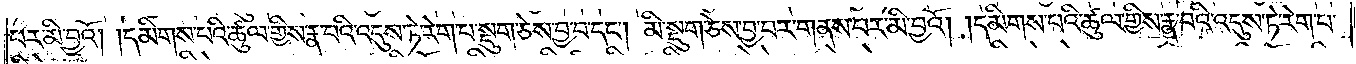པར་མི་བྱའོ། །དམིགས་པའི་ཚུལ་གྱིས་རྣ་བའི་འདུས་ཏེ་རེག་པ་སྡུག་ཅེས་བྱ་བ་དང༌། མི་སྡུག་ཅེས་བྱ་བར་གནས་པར་མི་བྱའོ། །དམིགས་པའི་ཚུལ་གྱིས་རྣ་བའི་འདུས་ཏེ་རེག་པ་
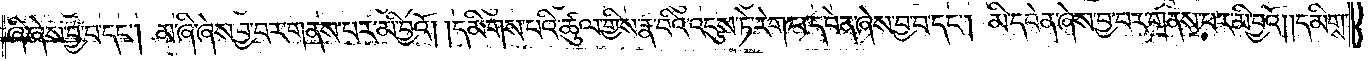ཞི་ཞེས་བྱ་བ་དང༌། མ་ཞི་ཞེས་བྱ་བར་གནས་པར་མི་བྱའོ། །དམིགས་པའི་ཚུལ་གྱིས་རྣ་བའི་འདུས་ཏེ་རེག་པ་དབེན་ཞེས་བྱ་བ་དང༌། མི་དབེན་ཞེས་བྱ་བར་གནས་པར་མི་བྱའོ། །དམིགས་
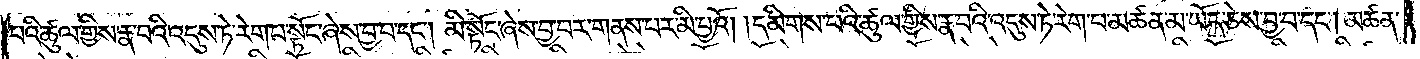པའི་ཚུལ་གྱིས་རྣ་བའི་འདུས་ཏེ་རེག་པ་སྟོང་ཞེས་བྱ་བ་དང༌། མི་སྟོང་ཞེས་བྱ་བར་གནས་པར་མི་བྱའོ། །དམིགས་པའི་ཚུལ་གྱིས་རྣ་བའི་འདུས་ཏེ་རེག་པ་མཚན་མ་ཡོད་ཅེས་བྱ་བ་དང༌། མཚན་
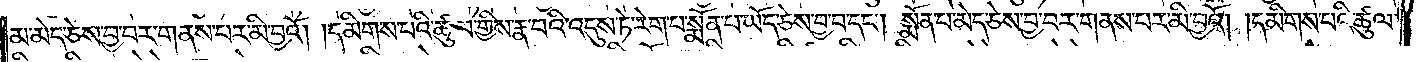མ་མེད་ཅེས་བྱ་བར་གནས་པར་མི་བྱའོ། །དམིགས་པའི་ཚུལ་གྱིས་རྣ་བའི་འདུས་ཏེ་རེག་པ་སྨོན་པ་ཡོད་ཅེས་བྱ་བ་དང༌། སྨོན་པ་མེད་ཅེས་བྱ་བར་གནས་པར་མི་བྱའོ། །དམིགས་པའི་ཚུལ་
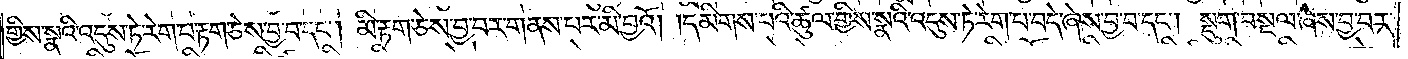གྱིས་སྣའི་འདུས་ཏེ་རེག་པ་རྟག་ཅེས་བྱ་བ་དང༌། མི་རྟག་ཅེས་བྱ་བར་གནས་པར་མི་བྱའོ། །དམིགས་པའི་ཚུལ་གྱིས་སྣའི་འདུས་ཏེ་རེག་པ་བདེ་ཞེས་བྱ་བ་དང༌། སྡུག་བསྔལ་ཞེས་བྱ་བར་
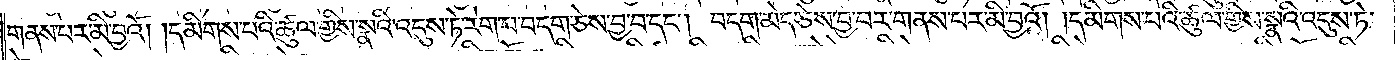གནས་པར་མི་བྱའོ། །དམིགས་པའི་ཚུལ་གྱིས་སྣའི་འདུས་ཏེ་རེག་པ་བདག་ཅེས་བྱ་བ་དང༌། བདག་མེད་ཅེས་བྱ་བར་གནས་པར་མི་བྱའོ། །དམིགས་པའི་ཚུལ་གྱིས་སྣའི་འདུས་ཏེ་
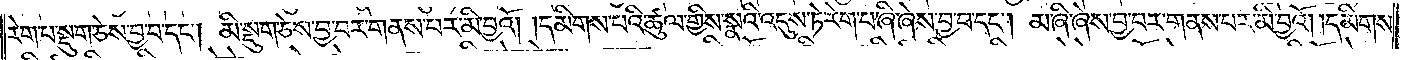རེག་པ་སྡུག་ཅེས་བྱ་བ་དང༌། མི་སྡུག་ཅེས་བྱ་བར་གནས་པར་མི་བྱའོ། །དམིགས་པའི་ཚུལ་གྱིས་སྣའི་འདུས་ཏེ་རེག་པ་ཞི་ཞེས་བྱ་བ་དང༌། མ་ཞི་ཞེས་བྱ་བར་གནས་པར་མི་བྱའོ། །དམིགས་
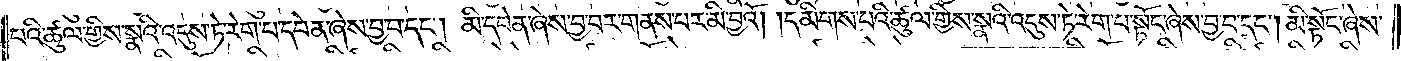པའི་ཚུལ་གྱིས་སྣའི་འདུས་ཏེ་རེག་པ་དབེན་ཞེས་བྱ་བ་དང༌། མི་དབེན་ཞེས་བྱ་བར་གནས་པར་མི་བྱའོ། དམིགས་པའི་ཚུལ་གྱིས་སྣའི་འདུས་ཏེ་རེག་པ་སྟོང་ཞེས་བྱ་བ་དང༌། མི་སྟོང་ཞེས་
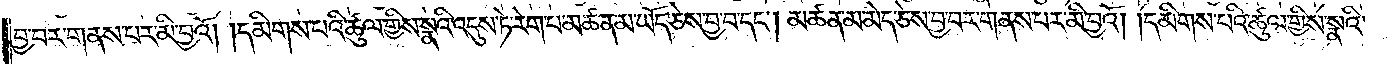བྱ་བར་གནས་པར་མི་བྱའོ། །དམིགས་པའི་ཚུལ་གྱིས་སྣའི་འདུས་ཏེ་རེག་པ་མཚན་མ་ཡོད་ཅེས་བྱ་བ་དང༌། མཚན་མ་མེད་ཅེས་བྱ་བར་གནས་པར་མི་བྱའོ། །དམིགས་པའི་ཚུལ་གྱིས་སྣའི་
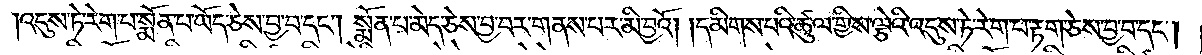འདུས་ཏེ་རེག་པ་སྨོན་པ་ཡོད་ཅེས་བྱ་བ་དང༌། སྨོན་པ་མེད་ཅེས་བྱ་བར་གནས་པར་མི་བྱའོ། །དམིགས་པའི་ཚུལ་གྱིས་ལྕེའི་འདུས་ཏེ་རེག་པ་རྟག་ཅེས་བྱ་བ་དང༌།
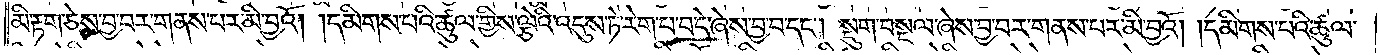མི་རྟག་ཅེས་བྱ་བར་གནས་པར་མི་བྱའོ། །དམིགས་པའི་ཚུལ་གྱིས་ལྕེའི་འདུས་ཏེ་རེག་པ་བདེ་ཞེས་བྱ་བ་དང༌། སྡུག་བསྔལ་ཞེས་བྱ་བར་གནས་པར་མི་བྱའོ། །དམིགས་པའི་ཚུལ་
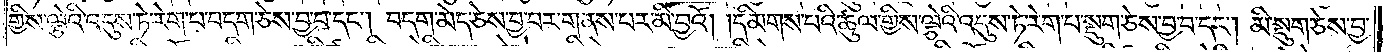གྱིས་ལྕེའི་འདུས་ཏེ་རེག་པ་བདག་ཅེས་བྱ་བ་དང༌། བདག་མེད་ཅེས་བྱ་བར་གནས་པར་མི་བྱའོ། །དམིགས་པའི་ཚུལ་གྱིས་ལྕེའི་འདུས་ཏེ་རེག་པ་སྡུག་ཅེས་བྱ་བ་དང༌། མི་སྡུག་ཅེས་བྱ་
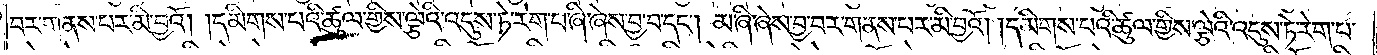བར་གནས་པར་མི་བྱའོ། །དམིགས་པའི་ཚུལ་གྱིས་ལྕེའི་འདུས་ཏེ་རེག་པ་ཞི་ཞེས་བྱ་བ་དང༌། མ་ཞི་ཞེས་བྱ་བར་གནས་པར་མི་བྱའོ། །དམིགས་པའི་ཚུལ་གྱིས་ལྕེའི་འདུས་ཏེ་རེག་པ་
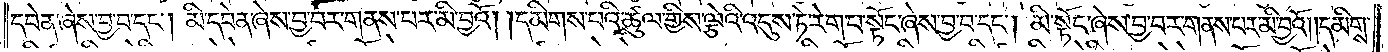དབེན་ཞེས་བྱ་བ་དང༌། མི་དབེན་ཞེས་བྱ་བར་གནས་པར་མི་བྱའོ། ། དམིགས་པའི་ཚུལ་གྱིས་ལྕེའི་འདུས་ཏེ་རེག་པ་སྟོང་ཞེས་བྱ་བ་དང༌། མི་སྟོང་ཞེས་བྱ་བར་གནས་པར་མི་བྱའོ། །དམིགས་
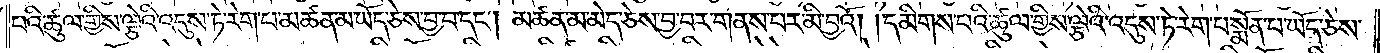པའི་ཚུལ་གྱིས་ལྕེའི་འདུས་ཏེ་རེག་པ་མཚན་མ་ཡོད་ཅེས་བྱ་བ་དང༌། མཚན་མ་མེད་ཅེས་བྱ་བར་གནས་པར་མི་བྱའོ། །དམིགས་པའི་ཚུལ་གྱིས་ལྕེའི་འདུས་ཏེ་རེག་པ་སྨོན་པ་ཡོད་ཅེས་
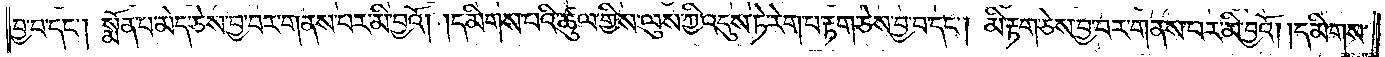བྱ་བ་དང༌། སྨོན་པ་མེད་ཅེས་བྱ་བར་གནས་པར་མི་བྱའོ། །དམིགས་པའི་ཚུལ་གྱིས་ལུས་ཀྱི་འདུས་ཏེ་རེག་པ་རྟག་ཅེས་བྱ་བ་དང༌། མི་རྟག་ཅེས་བྱ་བར་གནས་པར་མི་བྱའོ། །དམིགས་
